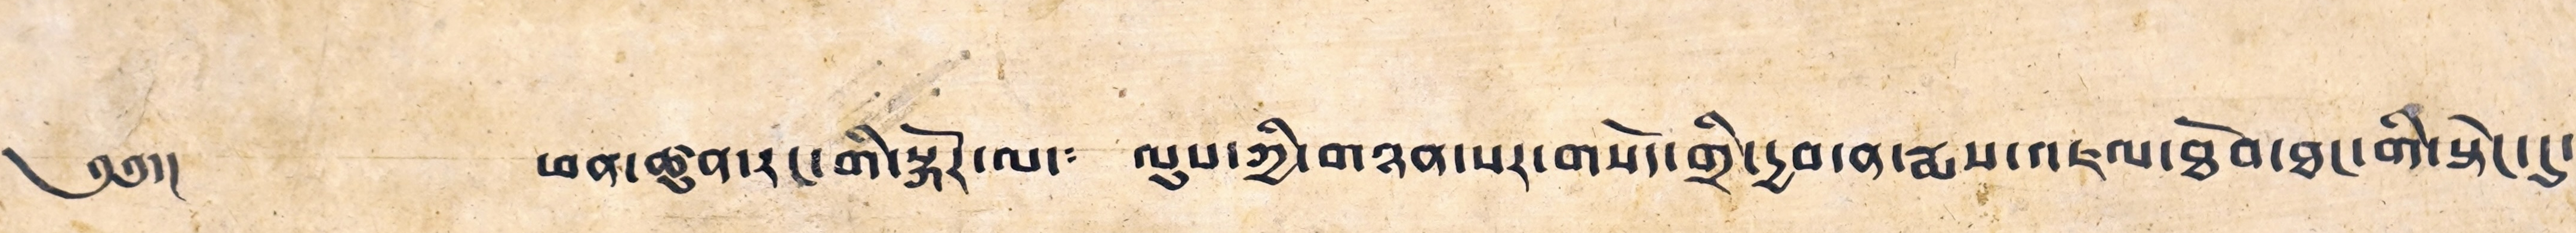༄༅།།  ཕན་ཚུན་རང་གི་སྐོར་ལ་༴ ལུས་ཀྱི་གཉན་པར་གསོད་གྲི་དྱབ་ན་རྨས་འཇལ་ཐོབ་ཐང་གི་སྟེང་དུ་
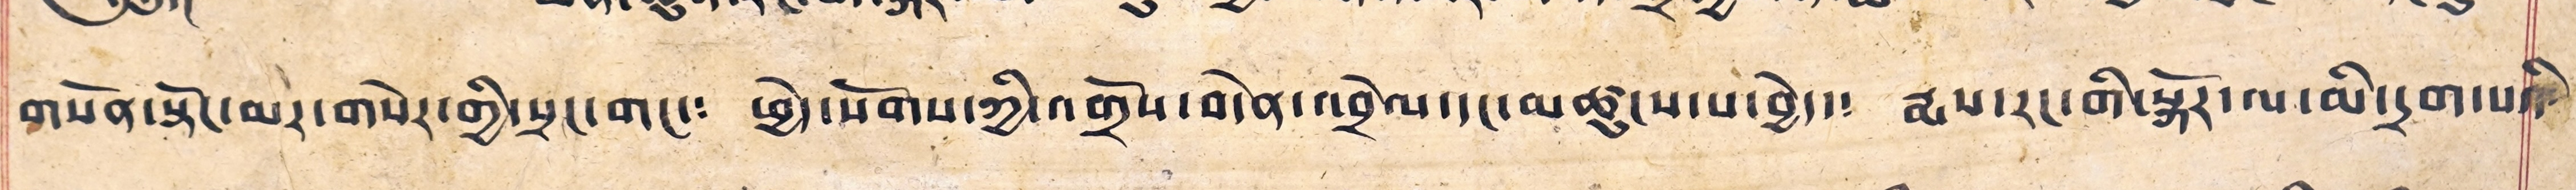གསོན་སྟོང་མར་གསེར་གྱི་སྲང་གང་༴ ཕྱེད་སོགས་ཀྱི་འགྲོས་བདེན་འབྲེལ་དང་མཚུངས་པ་བྱེད་༴ རྨས་རང་གི་སྐོར་ལ་མི་དྲག་པའི་
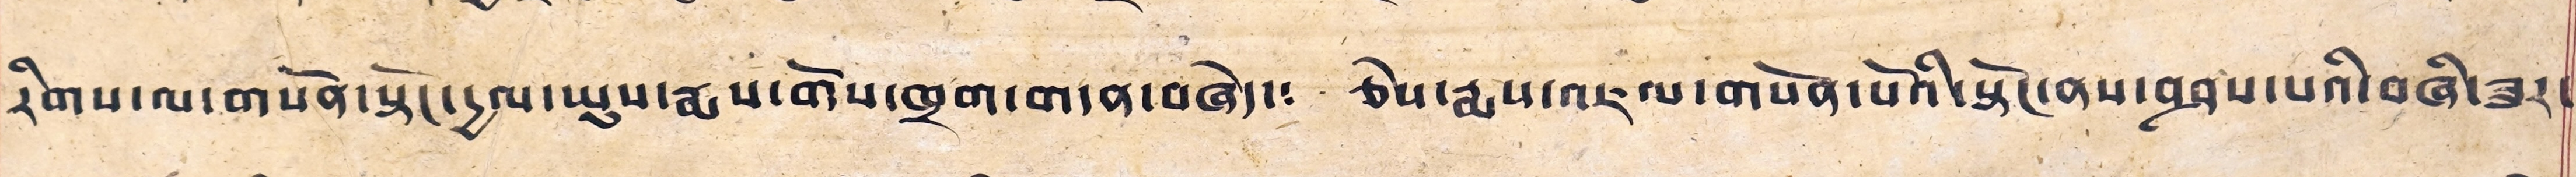རིགས་ལ་གསོན་སྟོང་དྱལ་ཡུས་རྨས་གོས་ཁྲག་གདན་བཞེད་༴ ཅེས་རྨས་འཇལ་གསོན་པོའི་སྟོང་ནས་བཤས་པའི་བཞི་ཟུར་
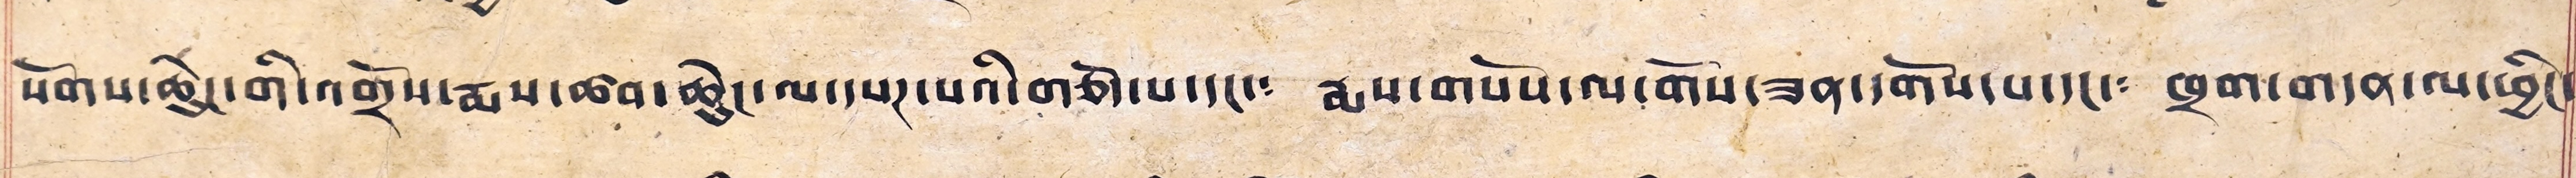སོགས་ཆེུང་གི་འགྲོས་རྨས་ཚབ་ཆེུང་ལ་དཔཊ་པའི་གཅོད་པ་དང་༴ རྨས་གསོས་ལ་གོས་ཟན་དགོས་པ་དང་༴ ཁྲག་གདན་ལ་ཕྱིང་
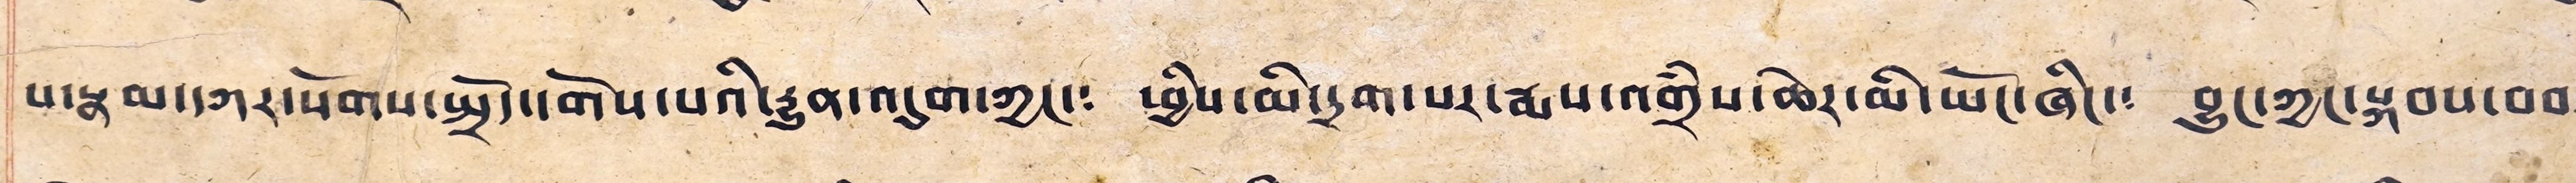པ་རྣམ་དཀར་སོགས་སྤྲོད་དགོས་པའི་དྱུན་འདུག་ཀྱང་༴ ཕྱིས་མི་དྲག་པར་རྨས་འགྲཾས་ཆེར་མི་ཡོང་ཞིང་༴ བྱུང་ཀྱང་སྐབས་བབས༴
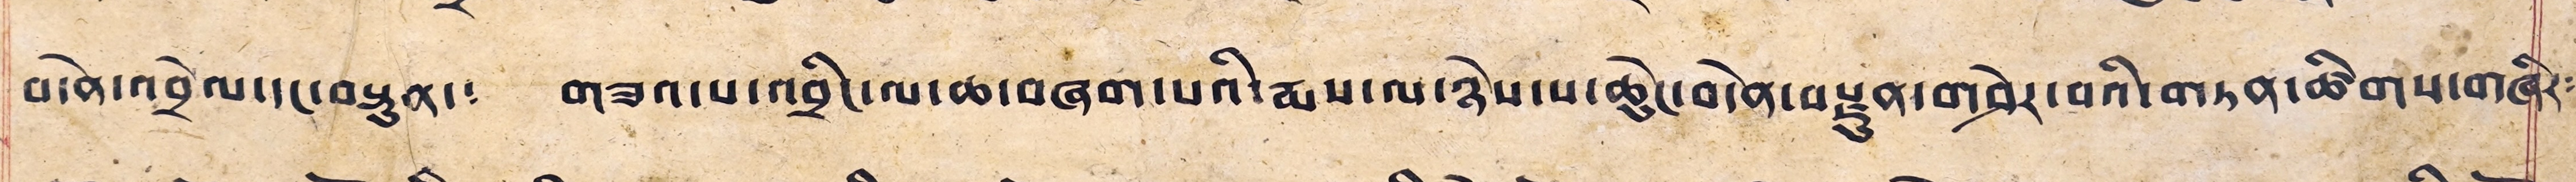བདེན་འབྲེལ་དང་བསྟུན་༴ གཟའ་པ་འབྲིང་ལ་ཆ་བཞག་པའི་རྨས་ལ་ཉེས་པ་ཆེུང་བདེན་བརྫུན་གཤེར་བའི་གཏན་ཚིགས་གཞིར༴
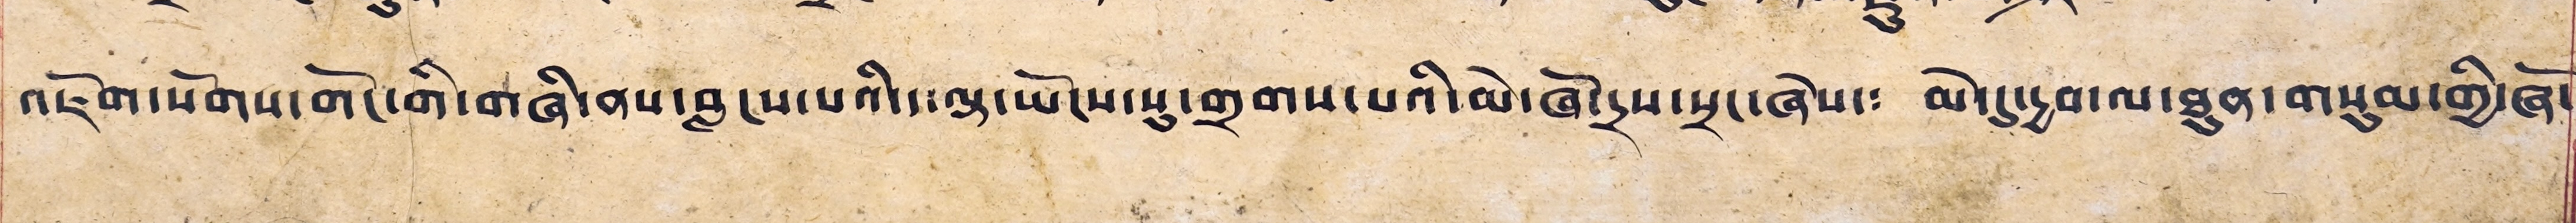འཇོག་སོགས་གོང་གི་གཞི་ནས་བླངས་པའི་ད་ལྟ་ཡོངས་སུ་གྲགས་པའི་མེ་ཞོ་དྲས་སྲང་ཞེས་༴ མེ་དུ་དྱབ་ལ་ཐུན་གསུམ་གྱི་ཞོ་
